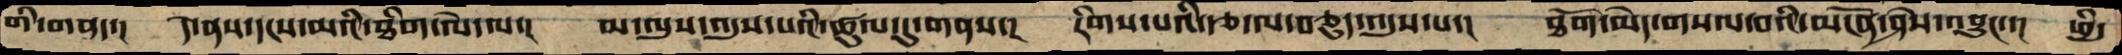གི་གནད་།  དེ་ནས་དངས་མའི་ཐིག་ལེ་ལ་།  མ་ལུས་འདུས་པའི་ཚུལ་དུ་གནས་།  རིགས་པའི་རྩ་ལ་བཅུད་འདུས་པ་།  ཐོག་མེད་གསལ་བའི་མངོན་ཤེས་འབྱུང་་།  ཕྱི་
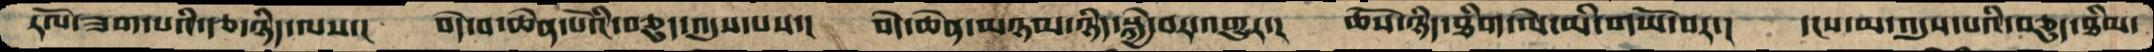རོལ་ཟག་པའི་རྩ་ཉིད་ལས་།   བདེ་བ་ཆེན་པོའི་བཅུད་འདུས་པས་།  བདེ་ཆེན་མཉམ་ཉིད་སྐྱེ་བར་འགྱུར་།  ཆོས་ཉིད་ཐིག་ལེ་མི་གཡོ་བར་།  དངས་མ་འདུས་པའི་བཅུད་ཐིམ་
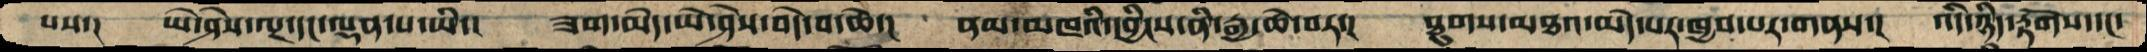པས་།  ཡེ་ཤེས་ལྔ་དང་ལྡན་པ་ཡི་།  ཟག་མེད་ཡེ་ཤེས་བདེ་བ་ཆེ་།  ནམ་མཁའི་དབྱིངས་ནི་རྒྱ་ཆེ་བར་།  ཐུགས་མཐའ་མེད་པར་ཁྱབ་པར་གནས་།  འདི་ཉིད་རྟོགས་དང་
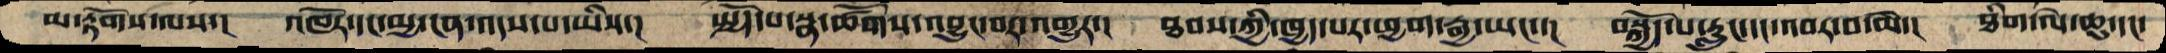མ་རྟོགས་ལས་།  འཁོར་དང་མྱ་ངན་འདས་པ་ཡིས་།  སྤྱོད་པ་སྣ་ཚོགས་འབྱུང་བར་འགྱུར་།   ཐབས་ཀྱི་ཁྱད་པར་ཕྱག་རྒྱ་ཡང་་།   བསྐྱོད་པ་རླུང་དང་འབར་བ་མེ་།  ཐིག་ལེ་ཆུ་དང་
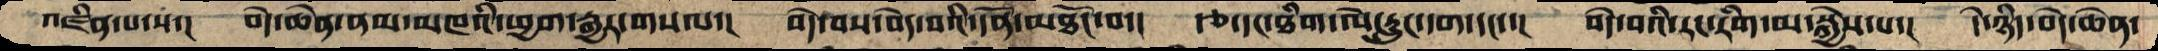འཛིན་པ་ས་།  བདེ་ཆེན་ནམ་མཁའི་ཕྱག་རྒྱར་གསལ་།  བདེ་བས་བདེ་བའི་དོན་མཐོང་བ་།  རྩ་དང་ཐིག་ལེ་རླུང་དག་དང་་།  བདེ་བའི་རང་རིག་མ་སྐྱེས་པ་།  དེ་ཉིད་བདེ་ཆེན་
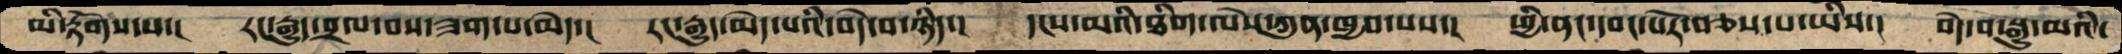མི་རྟོགས་པ་།  རང་རྒྱུད་བྲལ་བས་ཟག་པ་མེད་།  རང་རྒྱུད་མེད་པའི་བདེ་བ་ཉིད་།  དངས་མའི་ཐིག་ལེས་ཀུན་ཁྱབ་པས་།  ཕྱི་ནང་དབང་པོར་བཅས་པ་ཡིས་།  བདེ་བ་སྒྱུ་མའི་
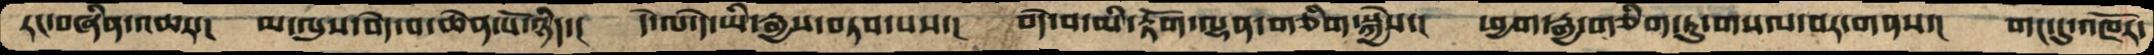རང་བཞིན་འཆར་།  མ་ལུས་བདེ་བ་ཆེན་པོ་ཉིད་།  དེ་ལ་དེ་ཡི་རྒྱས་བཏབ་པས་།  བདེ་བ་མི་རྟོག་ལྷན་གཅིག་སྐྱེས་།  ཕྱག་རྒྱ་གཅིག་ཏུ་གསལ་བར་གནས་།  གང་དུ་འཁོར་
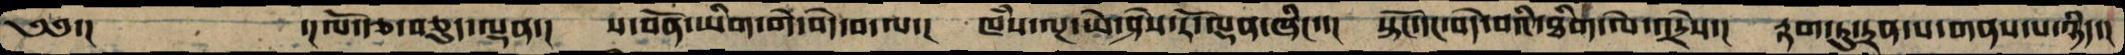༄༅་།        ་།ལོ་རྩ་བཅུད་ལྡན་།    ས་བོན་ཡིག་གེ་བདེ་བ་ལ་།  ཁཾས་ལྔ་ཡེ་ཤེས་རོ་ལྡན་ཞིང་་།  སྟོང་དང་བདེ་བའི་ཐིག་ལེ་འདྲེས་།  རྟག་ཏུ་དྲན་པ་གནས་པ་ཉིད་།
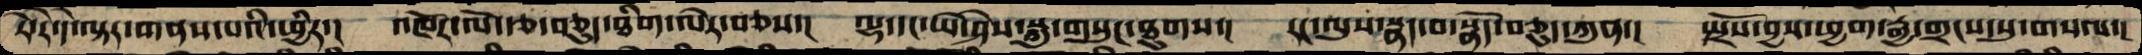རེ་རེ་དེ་ལྟར་གནས་པའི་ཕྱིར་།   འཁོར་ལོ་རྩ་བཅུད་ཐིག་ལེར་བཅས་།  ལྷ་དང་ཡེ་ཤེས་སྐུ་གསུང་ཐུགས་།  རང་ལུས་སྣང་བ་སྣོད་བཅུད་ཀུན་།  སྤྲོས་བྱས་ཕྱག་རྒྱ་གྲངས་སུ་གསལ་།
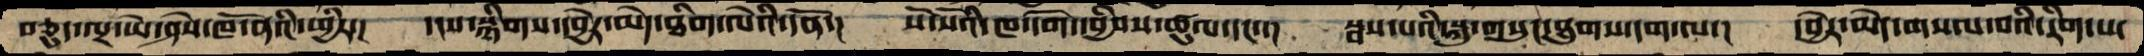བཅུད་ལྔ་ཡེ་ཤེས་ཁོ་ནའི་ཕྱིར་།  དངས་སྙིགས་དབྱེར་མེད་ཐིག་ལེའི་དོན་།  སོ་སོའི་ཁ་དོག་དབྱིབས་ཚུལ་དང་་།  སྦས་པའི་སྐུ་གསུང་ཐུགས་དག་ལ་།  དབྱེར་མེད་གསལ་བའི་རིག་པ་
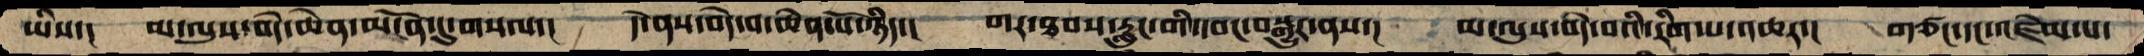ཡིས་།  མ་ལུས་བདེ་ཆེན་མངོན་དུ་གསལ་།  དེ་ནས་བདེ་བ་ཆེན་པོ་ཉིད་།  གར་ཐབས་རླུང་གི་དབང་བསྒྱུར་ནས་།  མ་ལུས་བདེ་བའི་རིག་པ་འཆར་།  གཙང་དང་འཛེམ་པ་
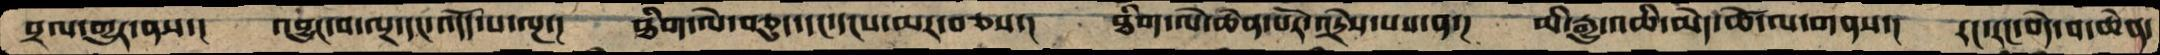བྲལ་གྱུར་ནས་།  འབྱུང་བ་ལྔ་དང་འདོད་པ་ལྔ་།  ཐིག་ལེ་བཅུད་དང་དངས་མར་བཅས་།  ཐིག་ལེ་ཆེན་པོར་འདྲེས་པས་ན་།  མི་རྒྱུ་འཆི་མེད་ཚེ་ལ་གནས་།  རང་རང་བདེ་བ་ཆེན་
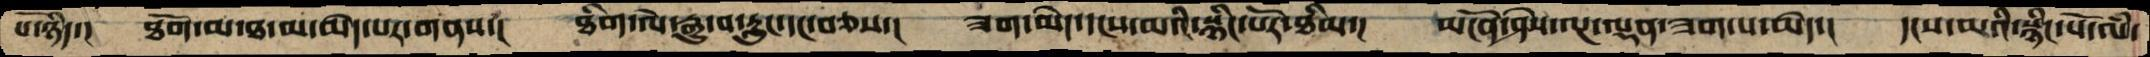པོ་ཉིད་།  ཐོག་མ་ཐ་མ་མེད་པར་གནས་།  ཐིག་ལེ་རྒྱུ་བ་རླུང་དང་བཅས་།  ཟག་མེད་དངས་མའི་སྙིང་པོར་ཐིམ་།  མངོན་ཤེས་ལྔ་ལྡན་ཟག་པ་མེད་།  དངས་མའི་སྙིང་པོ་ལཾ་
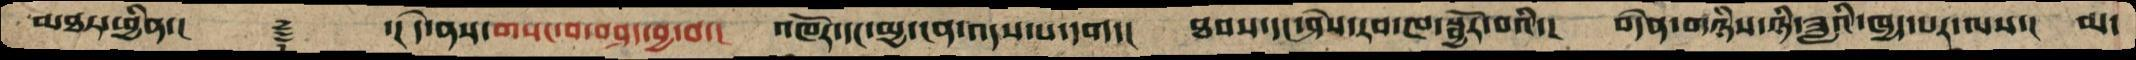མཐར་ཕྱིན་།   ࿑    ་།དེ་ནས་གསང་བ་བཤད་བྱ་བ་།  འཁོར་དང་མྱ་ངན་འདས་པ་དག་།  ཐབས་དང་ཤེས་རབ་ཁ་སྦྱོར་བའི་།  བདེན་གཉིས་ཉི་ཟླའི་ཁྱད་པར་ལས་།  མ་
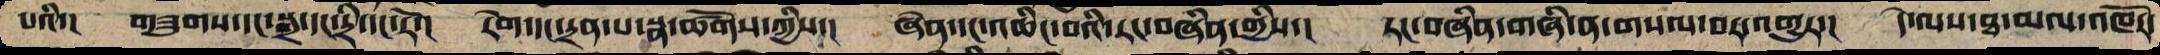པའི་།  གཟུགས་དང་སྒྲ་དང་དྲི་དང་རོ་།  རེག་དང་དྲན་པ་སྣ་ཚོགས་ཀྱིས་།  ཞེན་དང་འཆིང་བའི་རང་བཞིན་གྱིས་།  རང་བཞིན་གཞི་ན་གསལ་བར་འགྱུར་།  དེ་ལས་ཐ་མལ་འཁོར་
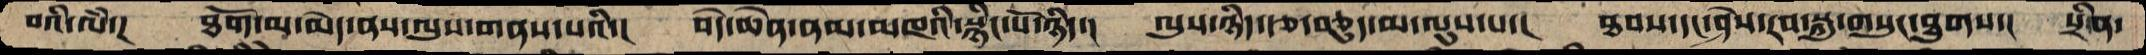བའི་ལཾ་།  ཐོག་མ་མེད་ནས་ལུས་གནས་པའི་།  བདེ་ཆེན་ནམ་མཁའི་སྙིང་པོ་ཉིད་།  ལུས་ཉིད་རྩ་བཅུད་མ་ལུས་པ་།  ཐབས་དང་ཤེས་རབ་སྐུ་གསུང་ཐུགས་།  སྲིན་
